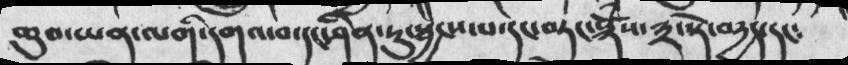ཆུབ་ཡན་ལགི་དགའ་བ་དང་ཤིན་ཏུ་སྦྱངས་པ་དང་བཏང་སྙོཾས་༣་སྟེ་བདྱད་དང༴
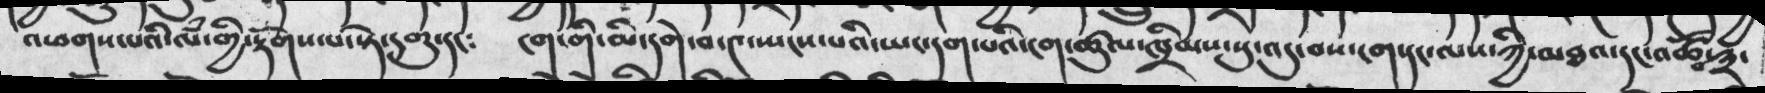འཕགས་པའི་ལཾ་གྱི་རྟོགས་པ་སྟེ་དགུ་དང༴  ངག་གི་མ་དགེ་བ་༤་སྤངས་པའི་ཡང་དག་པའི་ངག་ཚུལ་ཁྲིམས་སུ་འདུ་བས་ངག་ལས་ཀྱི་མཐའ་དང་འཚོ་བ་༣་
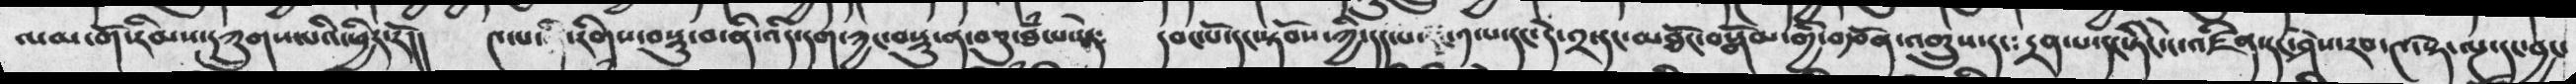ལམ་གོ་རིམས་དཀྲུགས་པའི་ཕྱིར་རོ།།  ༤་པ་ནི་རིགས་བསྡུ་བ་ནི་འདི་དག་ཀྱང་བསྡུ་ན་བཅུ་ཐཾ་པ་སྟེ༴  དབང་པོ་དང་སྟོབས་ཀྱི་དད་པ ༡་པ་དང་དེ་༢་དང་མཐོང་བསྒོམ་གྱི་བརྩོན་འགྲུས་དང༴  དྲན་པ་དང་ཏིང་ངེ་འཛིན་དང་ཤེས་རབ་༤་སྟེ་ལྔ་དང་བྱང་
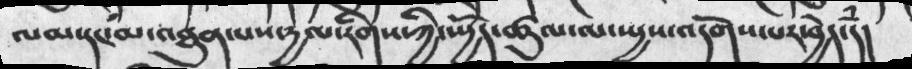ལམ་དང་མ་འཐུན་པས་དྱལ་རིགས་ཀྱི་སྤྱོད་ཚུལ་ལ་ཡྱས་འདོགས་པར་བྱེད་དཾ།
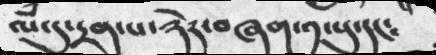ལཾ་དུ་དྲན་པ་ཉེར་བཞག་༡་པུ་དང༴
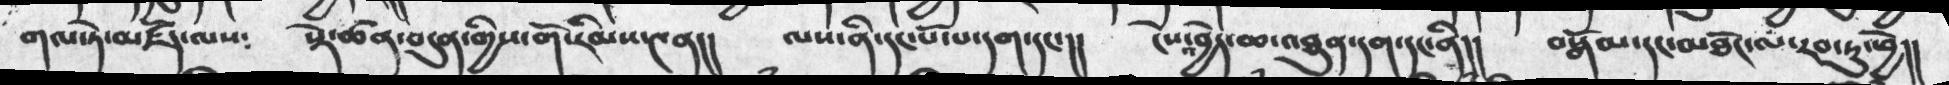གལ་ཏེ་མཛོད་ལས༴  སྡེ་ཚན་བདུན་གྱིས་གོ་རིམས་༤ན།།  ལས་ནི་དང་པོ་པ་དག་དང་།།  ངེས་འབྱེད་ཆ་འཐུན་དག་དང་ནི།།  བསྒོམ་དང་མཐོང་ལཾ་རབ་ཏུ་བྱེ།།
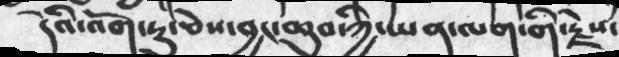དེའི་འོག་ཏུ་ཅེས་བྱང་ཆུབ་ཀྱི་ཡན་ལག་གི་རྗེས་
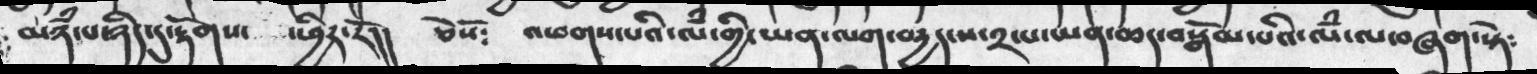མཉཾ་པ་ཉིད་དུ་ེརྟོགས་ ་ཕྱིར་རོ།།  ཅེསོ༴  འཕགས་པའི་ལཾ་གྱི་ཡན་ལག་བདྱད་ས་༢་པ་ཡན་ཆད་བསྒོམ་པའི་ལཾ་ལ་བཞག་སྟེ༴
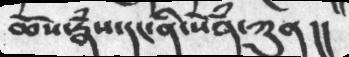ཆོས་རྣཾས་དང་ནི་སེཾན་ཀུན།།
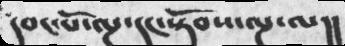དབང་པོ་ལྔ་དང་སྟོབས་ལྔ་ལ།།
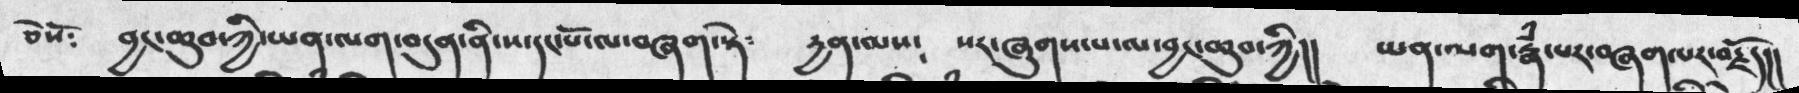ཅེསོ༴  བྱང་ཆུབ་ཀྱི་ཡན་ལག་བདུན་ནི་ས་དང་པོ་ལ་བཞག་སྟེ༴  དྱན་ལས༴  སར་ཞུགས་པ་ལ་བྱང་ཆུབ་ཀྱི།།  ཡན་ལག་རྣཾ་པར་བཞག་པར་བརྗོད།།
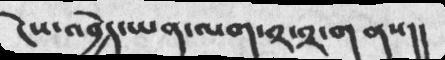ངེས་འབྱེད་ཡན་ལག་༢་༢་གནས།།
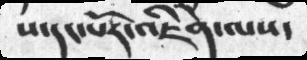ས་དང་པོར་འཇིེན་ལས་
